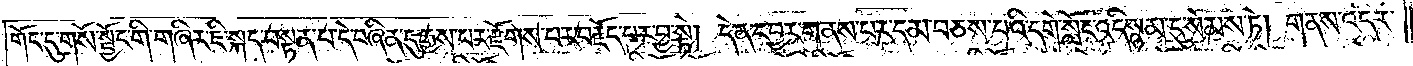གོང་དུ་གསོ་སྦྱོང་གི་གཞིར་ཇི་སྐད་བསྟན་པ་དེ་བཞིན་དུ་རྒྱས་པར་རྫོགས་པར་བརྗོད་པར་བྱ་སྟེ། དེ་ན་དབྱར་གནས་པར་དམ་བཅས་པའི་དགེ་སློང་འདི་སྙམ་དུ་སེམས་ཏེ། གནས་འདིར་
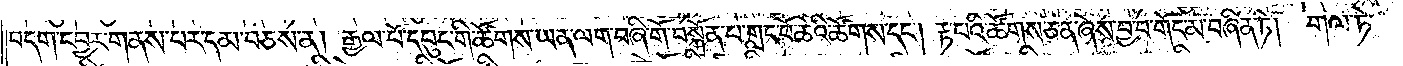བདག་དབྱར་གནས་པར་དམ་བཅས་ན། རྒྱལ་པོ་དཔུང་གི་ཚོགས་ཡན་ལག་བཞི་གོ་བསྐོན་པ་གླང་པོ་ཆེའི་ཚོགས་དང༌། རྟ་པའི་ཚོགས་ཅན་ཞེས་བྱ་བ་གོང་མ་བཞིན་ཏེ། གལ་ཏེ་
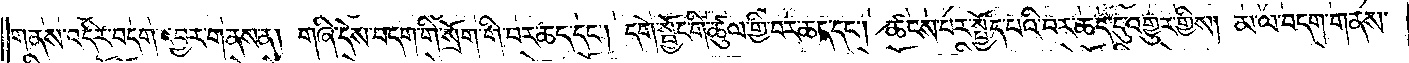གནས་འདིར་བདག་དབྱར་གནས་ན། གཞི་དེས་བདག་གི་སྲོག་གི་བར་ཆད་དང༌། དགེ་སྦྱོང་གི་ཚུལ་གྱི་བར་ཆད་དང༌། ཚངས་པར་སྤྱོད་པའི་བར་ཆད་དུ་འགྱུར་གྱིས། མ་ལ་བདག་གནས་
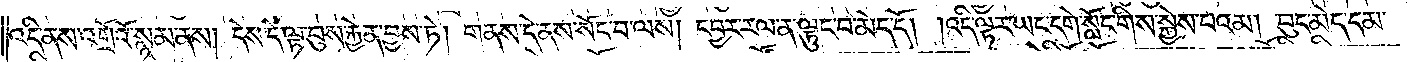འདི་ནས་འགྲོའོ་སྙམ་ནས། དེས་དེ་ལྟ་བུས་རྐྱེན་བྱས་ཏེ། གནས་དེ་ནས་སོང་བ་ལས། དབྱར་རལ་ན་ལྟུང་བ་མེད་དོ། །འདི་ལྟར་ཡང་དགེ་སློང་གིས་སྐྱེས་པའམ། བུད་མེད་དམ་
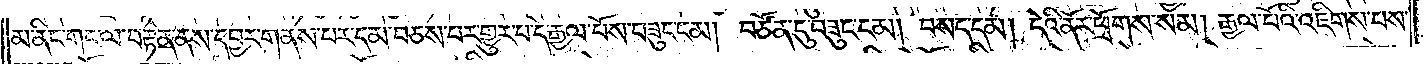མ་ནིང་གང་ལ་བརྟེན་ནས་དབྱར་གནས་པར་དམ་བཅས་པར་གྱུར་པ་དེ་རྒྱལ་པོས་བཟུང་ངམ། བཙོན་དུ་བཟུང་ངམ། བསང་དམ། དེའི་ནོར་ཕྲོགས་སམ། རྒྱལ་པོའི་འཇིགས་པས་
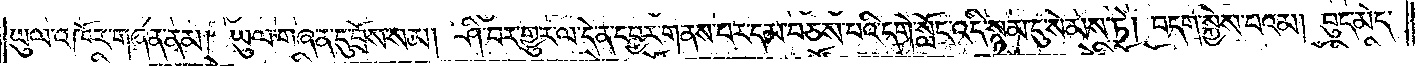ཡུལ་འཁོར་གཞན་ནམ། ཡུལ་གཞན་དུ་བྲོས་སམ། ཤི་བར་གྱུར་ལ་དེ་ན་དབྱར་གནས་པར་དམ་བཅས་པའི་དགེ་སློང་འདི་སྙམ་དུ་སེམས་ཏེ། བདག་སྐྱེས་པའམ། བུད་མེད་
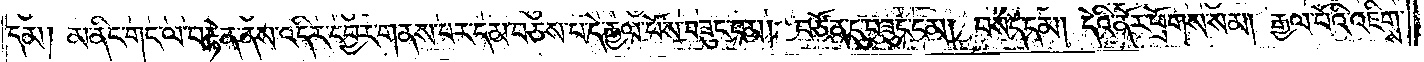དམ། མ་ནིང་གང་ལ་བརྟེན་ནས་འདིར་དབྱར་གནས་པར་དམ་བཅས་པ་དེ་རྒྱལ་པོས་བཟུང་ངམ། བཙོན་དུ་བཟུང་ངམ། བསད་དམ། དེའི་ནོར་ཕྲོགས་སམ། རྒྱལ་པོའི་འཇིགས་
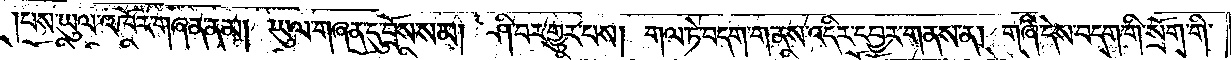པས་ཡུལ་འཁོར་གཞན་ནམ། ཡུལ་གཞན་དུ་བྲོས་སམ། ཤི་བར་གྱུར་པས། གལ་ཏེ་བདག་གནས་འདིར་དབྱར་གནས་ན། གཞི་དེས་བདག་གི་སྲོག་གི་
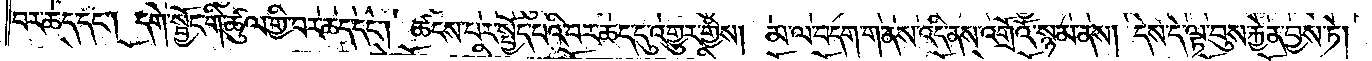པར་ཆད་དང༌། དགེ་སྦྱོང་གི་ཚུལ་གྱི་བར་ཆད་དང༌། ཚངས་པར་སྤྱོད་པའི་བར་ཆད་དུ་འགྱུར་གྱིས། མ་ལ་བདག་གནས་འདི་ནས་འགྲོའོ་སྙམ་ནས། དེས་དེ་ལྟ་བུས་རྐྱེན་བྱས་ཏེ།
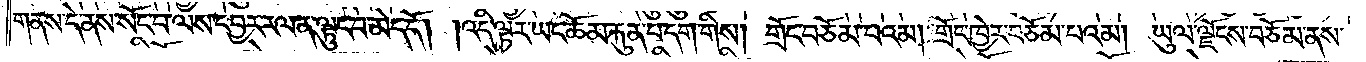གནས་དེ་ནས་སོང་བ་ལས་དབྱར་རལ་ན་ལྟུང་བ་མེད་དོ། །འདི་ལྟར་ཡང་ཆོམ་རྐུན་པ་དག་གིས། གྲོང་བཅོམ་པའམ། གྲོང་ཁྱེར་བཅོམ་པའམ། ཡུལ་ལྗོངས་བཅོམ་ནས་
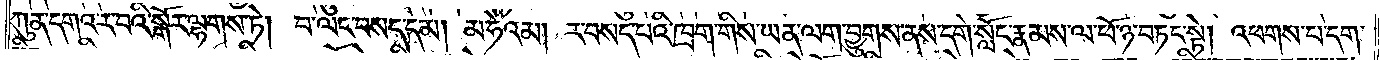ཀུན་དགའ་ར་བའི་སྒོར་ལྷགས་ཏེ། བ་ལང་བསད་དམ། མ་ཧེའམ། ར་བསད་པའི་ཁྲག་གིས་ཡན་ལག་བྱུགས་ནས་དགེ་སློང་རྣམས་ལ་ཕོ་ཉ་བཏང་སྟེ། འཕགས་པ་དག་
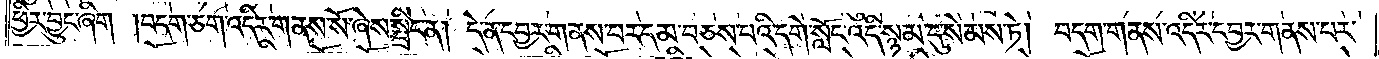ཕྱིར་བྱུང་ཞིག །བདག་ཅག་འདིར་གནས་སོ་ཞེས་སྤྲིང་ན། དེ་ན་དབྱར་གནས་པར་དམ་བཅས་པའི་དགེ་སློང་འདི་སྙམ་དུ་སེམས་ཏེ། བདག་གནས་འདིར་དབྱར་གནས་པར་
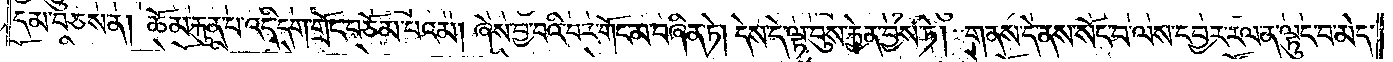དམ་བཅས་ན། ཆོམ་རྐུན་པ་འདི་དག་གྲོང་བཅོམ་པའམ། ཞེས་བྱ་བའི་བར་གོང་མ་བཞིན་ཏེ། དེས་དེ་ལྟ་བུས་རྐྱེན་བྱས་ཏེ། གནས་དེ་ནས་སོང་བ་ལས་དབྱར་རལ་ན་ལྟུང་བ་མེད་
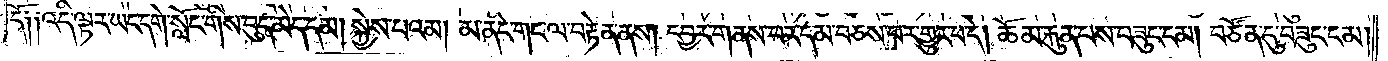དོ༏ ༏ འདི་ལྟར་ཡང་དགེ་སློང་གིས་བུད་མེད་དམ། སྐྱེས་པའམ། མ་ནིང་གང་ལ་བརྟེན་ནས། དབྱར་གནས་པར་དམ་བཅས་པར་གྱུར་བ་དེ། ཆོམ་རྐུན་པས་བཟུང་ངམ། བཙོན་དུ་བཟུང་ངམ།
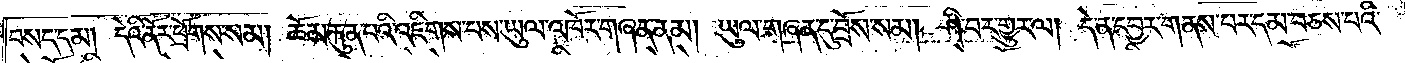བསད་དམ། དེའི་ནོར་ཕྲོགས་སམ། ཆོམ་རྐུན་པའི་འཇིགས་པས་ཡུལ་འཁོར་གཞན་ནམ། ཡུལ་གཞན་དུ་བྲོས་སམ། ཤི་བར་གྱུར་ལ། དེ་ན་དབྱར་གནས་བར་དམ་བཅས་པའི་
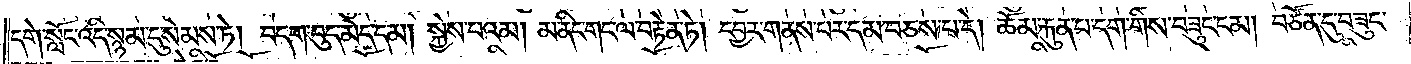དགེ་སློང་འདི་སྙམ་དུ་སེམས་ཏེ། བདག་བུད་མེད་དམ། སྐྱེས་པའམ། མ་ནིང་གང་ལ་བརྟེན་ཏེ། དབྱར་གནས་པར་དམ་བཅས་པ་དེ། ཆོམ་རྐུན་པ་དག་གིས་བཟུང་ངམ། བཙོན་དུ་བཟུང་
